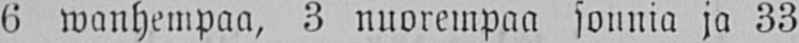6 wanhempaa, 3 nuorempaa sonnia ja 33
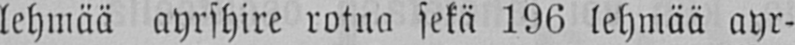lehmää ayrshire rotua sekä 196 lehmää ayr-
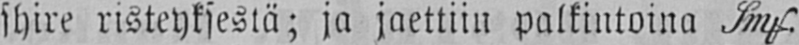shire risteyksestä; ja jaettiin palkintoina Imp.
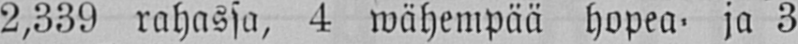2,339 rahassa, 4 wähempää hopea- ja 3
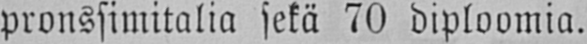pronssimitalia sekä 70 diploomia.
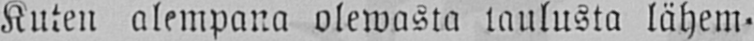Kuten alempana olewasta taulusta lähem-
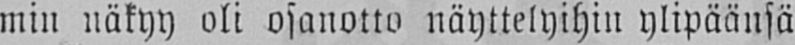min näkyy oli osanotto näyttelyihin ylipäänsä
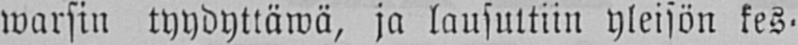warsin tyydyttäwä, ja lausuttiin yleisön kes-
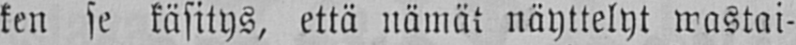ken se käsitys, että nämät näyttelyt wastai-
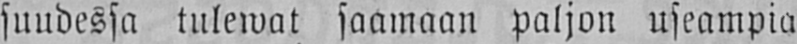suudessa tulewat saamaan paljon useampia
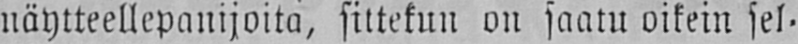näytteellepanijoita, sittekun on saatu oikein sel-
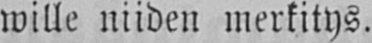wille niiden merkitys.
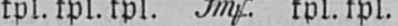kpl. kpl. kpl. Imp. kpl. kpl.
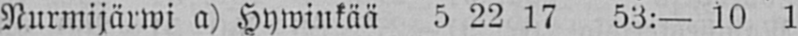Nurmijärwi a) Hywinkää 5 22 17 52:— 10 1
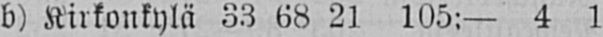b) Kirkonkylä 33 68 21 105:— 4 1
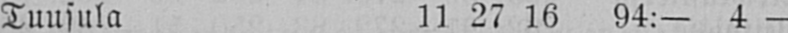Tuusula 11 27 16 94:— 4 —
